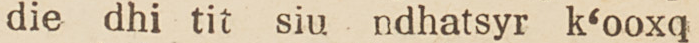die dhi tit siu ndhatsyr k'ooxq
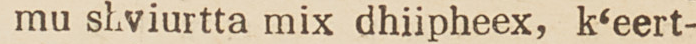mu shviurtta mix dhiipheex, k'eert-
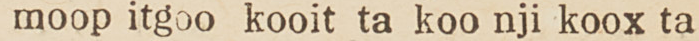moop itgoo kooit ta koo nji koox ta
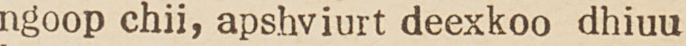ngoop chii, apshviurt deexkoo dhiuu
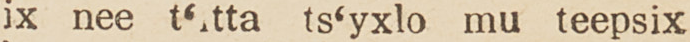ix nee t'itta ts'yxlo mu teepsix
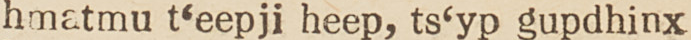hmatmu t'eepji heep, ts'yp gupdhinx
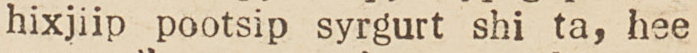hixjiip pootsip syrgurt shi ta, hee
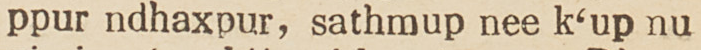ppur ndhaxpur, sathmup nee k'up nu
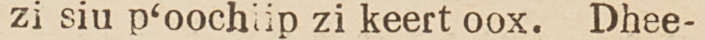zi siu p'oochiip zi keert oox. Dhee-
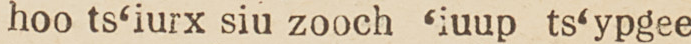hoo ts'iurx siu zooch 'iuup ts'ypgee
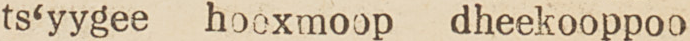ts'yygee hooxmoop dheekooppoo
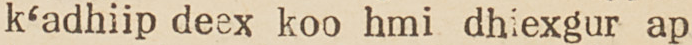K'adhiip deex koo hmi dhiexgur ap
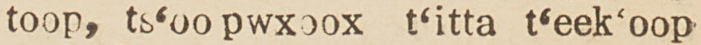toop, ts'oopwxoox t'itta t'eek'oop
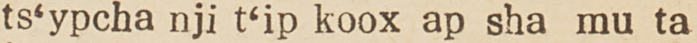ts'ypcha nji t'ip koox ap sha mu ta
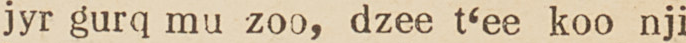jyr gurq mu zoo, dzee t'ee koo nji
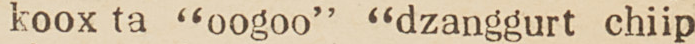koox ta "oogoo" "dzanggurt chiip
